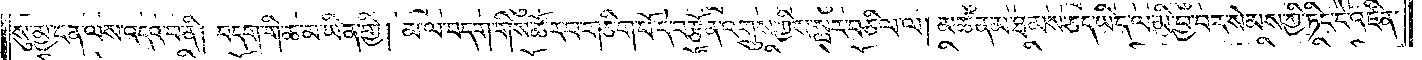སུ་མྱ་ངན་ལས་འདའ་བ་ནི། བདག་གི་ཆ་མ་ཡིན་གྱི། མ་ལ་བདག་གིས་ཚོར་བ་གཅིག་པོ་དེ་བརྩོན་འགྲུས་ཀྱིས་སླར་བཅིལ་ལ། མཚན་མ་ཐམས་ཅད་ཡིད་ལ་མི་བྱ་བར་སེམས་ཀྱི་ཏིང་ངེ་འཛིན་
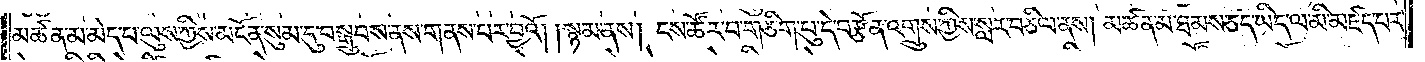མཚན་མ་མེད་པ་ལུས་ཀྱིས་མངོན་སུམ་དུ་བསྒྲུབས་ནས་གནས་པར་བྱའོ། །སྙམ་ནས། ངས་ཚོར་བ་གཅིག་པུ་དེ་བརྩོན་འགྲུས་ཀྱིས་སླར་བཅིལ་ནས། མཚན་མ་ཐམས་ཅད་ཡིད་ལ་མི་མཛད་པར་
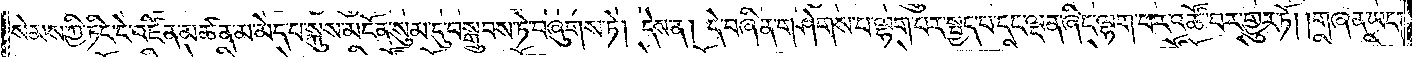སེམས་ཀྱི་ཏིང་ངེ་འཛིན་མཚན་མ་མེད་པ་སྐུས་མངོན་སུམ་དུ་བསྒྲུབས་ཏེ་བཞུགས་ཏེ། དེས་ན། དེ་བཞིན་གཤེགས་པ་ལྷག་པར་སྤྱད་པ་དང་ལྡན་ཞིང་ལྷག་པར་འཚོ་བར་གྱུར་ཏོ། །གཞན་ཡང་
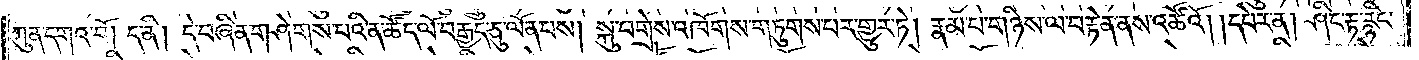ཀུན་དགའ་བོ། ད་ནི། དེ་བཞིན་གཤེགས་པའི་ན་ཚོད་ལོ་བརྒྱད་ཅུ་ལོན་པས། སྐུ་བགྲེས་འཁོགས་གཏུགས་པར་གྱུར་ཏེ། རྣམ་པ་གཉིས་ལ་བརྟེན་ནས་འཚོའོ། །དཔེར་ན། ཤིང་རྟ་རྙིང་
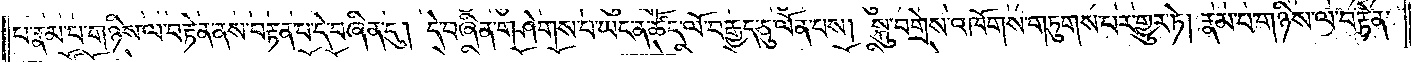པ་རྣམ་པ་གཉིས་ལ་བརྟེན་ནས་བརྟན་པ་དེ་བཞིན་དུ། དེ་བཞིན་གཤེགས་པ་ཡང་ན་ཚོད་ལོ་བརྒྱད་ཅུ་ལོན་པས། སྐུ་བགྲེས་འཁོགས་གཏུགས་པར་གྱུར་ཏེ། རྣམ་པ་གཉིས་ལ་བརྟེན་
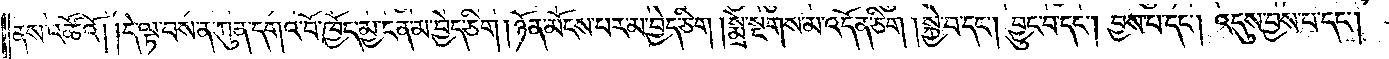ནས་འཚོའོ། །དེ་ལྟ་བས་ན་ཀུན་དགའ་བོ་ཁྱོད་མྱ་ངན་མ་བྱེད་ཅིག །ཉོན་མོངས་པར་མ་བྱེད་ཅིག །སྨྲེ་སྔགས་མ་འདོན་ཅིག །སྐྱེ་བ་དང༌། བྱུང་བ་དང༌། བྱས་པ་དང༌། འདུས་བྱས་པ་དང༌།
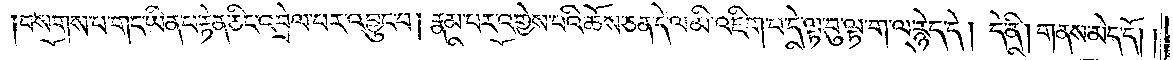བསགས་པ་གང་ཡིན་པ་རྟེན་ཅིང་འབྲེལ་པར་འབྱུང་བ། རྣམ་པར་འགྱེས་པའི་ཆོས་ཅན་དེ་ལ་མི་འཇིག་པ་དེ་ལྟ་བུ་ལྟ་ག་ལ་རྙེད་དེ། དེ་ནི། གནས་མེད་དོ། །
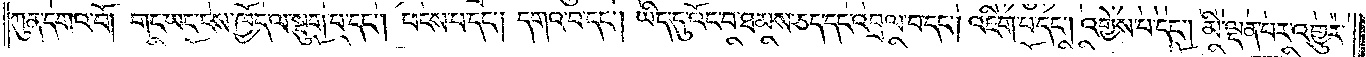ཀུན་དགའ་བོ། གང་ཡང་ངས་ཁྱོད་ལ་སྡུག་པ་དང༌། ཕངས་པ་དང༌། དགའ་བ་དང༌། ཡིད་དུ་འོང་བ་ཐམས་ཅད་དང་འབྲལ་བ་དང༌། འཇིག་པ་དང༌། འགྱེས་པ་དང༌། མི་ལྡན་པར་འགྱུར་
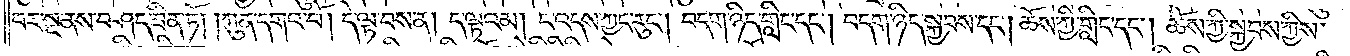བར་སྔ་ནས་བཤད་ཟིན་ཏོ། །ཀུན་དགའ་པོ། དེ་ལྟ་བས་ན། ད་ལྟའམ། ང་འདས་ཀྱང་རུང༌། བདག་ཉིད་གླིང་དང༌། བདག་ཉིད་སྐྱབས་དང༌། ཆོས་ཀྱི་གླིང་དང༌། ཆོས་ཀྱི་སྐྱབས་ཀྱིས་
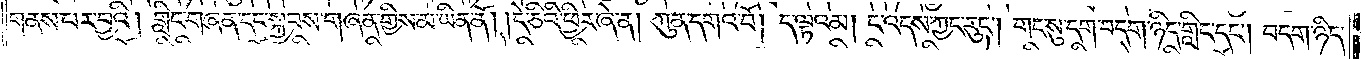གནས་པར་བྱའི། གླིང་གཞན་དང་སྐྱབས་གཞན་གྱིས་མ་ཡིན་ནོ། །དེ་ཅིའི་ཕྱིར་ཞེ་ན། ཀུན་དགའ་བོ། ད་ལྟའམ། ང་འདས་ཀྱང་རུང༌། གང་སུ་དག་བདག་ཉིད་གླིང་དང༌། བདག་ཉིད་
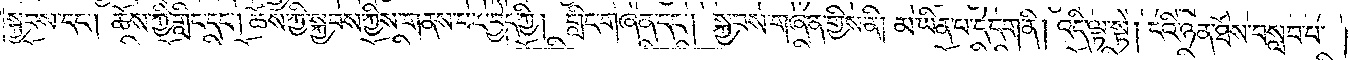སྐྱབས་དང༌། ཆོས་ཀྱི་གླིང་དང༌། ཆོས་ཀྱི་སྐྱབས་ཀྱིས་གནས་པར་བྱེད་ཀྱི། གླིང་གཞན་དང༌། སྐྱབས་གཞན་གྱིས་ནི། མ་ཡིན་པ་དེ་དག་ནི། འདི་ལྟ་སྟེ། ངའི་ཉན་ཐོས་བསླབ་པ་
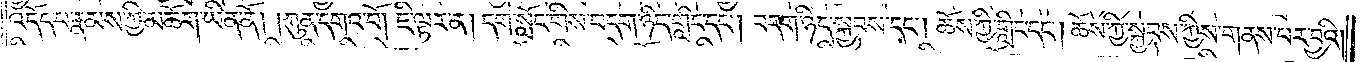འདོད་པ་རྣམས་ཀྱི་མཆོག་ཡིན་ནོ། །ཀུན་དགའ་བོ། ཇི་ལྟར་ན། དགེ་སློང་གིས་བདག་ཉིད་གླིང་དང༌། བདག་ཉིད་སྐྱབས་དང༌། ཆོས་ཀྱི་གླིང་དང༌། ཆོས་ཀྱི་སྐྱབས་ཀྱིས་གནས་པར་བྱའི།
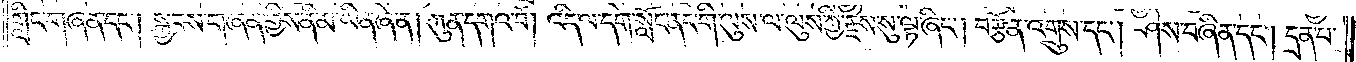གླིང་གཞན་དང༌། སྐྱབས་གཞན་གྱིས་ནི་མ་ཡིན་ཞེ་ན། ཀུན་དགའ་བོ། འདི་ལ་དགེ་སློང་ནང་གི་ལུས་ལ་ལུས་ཀྱི་རྗེས་སུ་ལྟ་ཞིང༌། བརྩོན་འགྲུས་དང༌། ཤེས་བཞིན་དང༌། དྲན་པ་
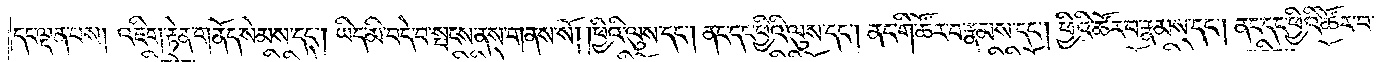དང་ལྡན་པས། འཇིག་རྟེན་གནོད་སེམས་དང༌། ཡིད་མི་བདེ་བ་སྤངས་ནས་གནས་སོ། །ཕྱིའི་ལུས་དང༌། ནང་དང་ཕྱིའི་ལུས་དང༌། ནང་གི་ཚོར་བ་རྣམས་དང༌། ཕྱིའི་ཚོར་བ་རྣམས་དང༌། ནང་དང་ཕྱིའི་ཚོར་བ་
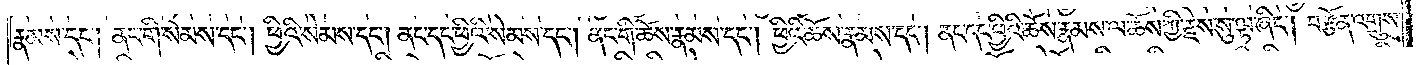རྣམས་དང༌། ནང་གི་སེམས་དང༌། ཕྱིའི་སེམས་དང༌། ནང་དང་ཕྱིའི་སེམས་དང༌། ནང་གི་ཆོས་རྣམས་དང༌། ཕྱིའི་ཆོས་རྣམས་དང༌། ནང་དང་ཕྱིའི་ཆོས་རྣམས་ལ་ཆོས་ཀྱི་རྗེས་སུ་ལྟ་ཞིང༌། བརྩོན་འགྲུས་
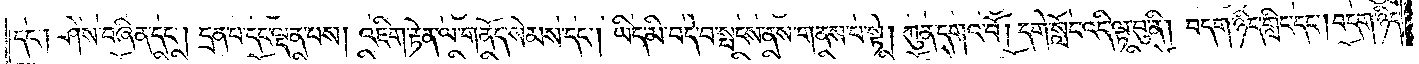དང༌། ཤེས་བཞིན་དང༌། དྲན་པ་དང་ལྡན་པས། འཇིག་རྟེན་ལ་གནོད་སེམས་དང༌། ཡིད་མི་བདེ་བ་སྤངས་ནས་གནས་པ་སྟེ། ཀུན་དགའ་བོ། དགེ་སློང་འདི་ལྟ་བུ་ནི། བདག་ཉིད་གླིང་དང༌། བདག་ཉིད་
